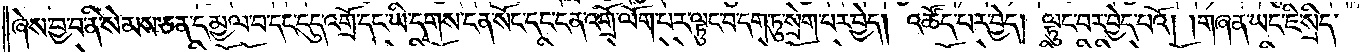ཞེས་བྱ་བ་ནི་སེམས་ཅན་དམྱལ་བ་དང་དུད་འགྲོ་དང་ཡི་དྭགས་ངན་སོང་དང་ངན་འགྲོ་ལོག་པར་ལྟུང་བ་དག་ཏུ་སྲེག་པར་བྱེད། འཚོད་པར་བྱེད། ལྟུང་བར་བྱེད་པའོ། །གཞན་ཡང་ཇི་སྲིད་
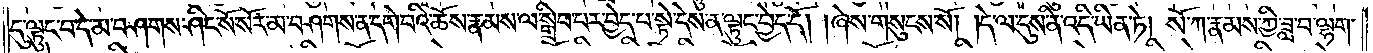དུ་ལྟུང་བ་དེ་མ་བཤགས་ཤིང་སོ་སོར་མ་བཤགས་ན་དགེ་བའི་ཆོས་རྣམས་ལ་སྒྲིབ་པར་བྱེད་པ་སྟེ་དེས་ན་ལྟུང་བྱེད་དོ། །ཞེས་གསུངས་སོ། །དེ་ལ་དུས་ནི་འདི་ཡིན་ཏེ། སོ་ཀ་རྣམས་ཀྱི་ཟླ་བ་ལྷག་
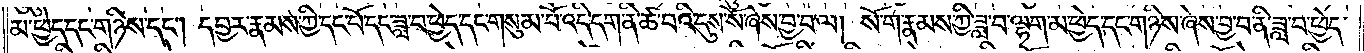མ་ཕྱེད་དང་གཉིས་དང༌། དབྱར་རྣམས་ཀྱི་དང་པོ་དང་ཟླ་བ་ཕྱེད་དང་གསུམ་པོ་འདི་དག་ནི་ཚ་བའི་དུས་སོ་ཞེས་བྱ་བ་ལ། སོ་ག་རྣམས་ཀྱི་ཟླ་བ་ལྷག་མ་ཕྱེད་དང་གཉིས་ཞེས་བྱ་བ་ནི་ཟླ་བ་ཕྱེད་
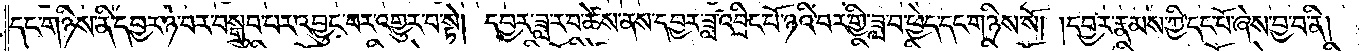དང་གཉིས་ནི་དབྱར་ཉེ་བར་བསྒྲུབ་པར་འབྱུང་བར་འགྱུར་བ་སྟེ། དབྱར་ཟླ་ར་བ་ཚེས་ནས་དབྱར་ཟླ་འབྲིང་པོ་ཉའི་བར་གྱི་ཟླ་བ་ཕྱེད་དང་གཉིས་སོ། །དབྱར་རྣམས་ཀྱི་དང་པོ་ཞེས་བྱ་བ་ནི།
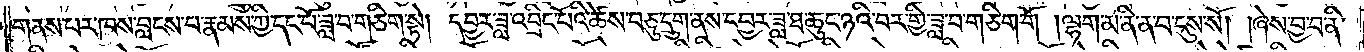གནས་པར་ཁས་བླངས་པ་རྣམས་ཀྱིས་དང་པོ་ཟླ་བ་གཅིག་སྟེ། དབྱར་ཟླ་འབྲིང་པོའི་ཚེས་བཅུ་དྲུག་ནས་དབྱར་ཟླ་ཐ་ཆུང་ཉའི་བར་གྱི་ཟླ་བ་གཅིག་གོ །ལྷག་མ་ནི་ན་བ་དུས་སོ། །ཞེས་བྱ་བ་ནི་
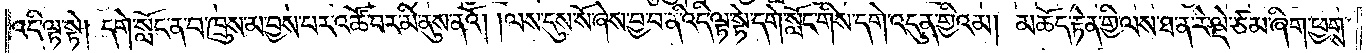འདི་ལྟ་སྟེ། དགེ་སློང་ན་བ་ཁྲུས་མ་བྱས་པར་འཚོ་བར་མི་ནུས་ནའོ། །ལས་དུས་སོ་ཞེས་བྱ་བ་ནི་འདི་ལྟ་སྟེ་དགེ་སློང་གིས་དགེ་འདུན་གྱིའམ། མཆོད་རྟེན་གྱི་ལས་ཐ་ན་རེ་ལྡེ་ཙམ་ཞིག་ཕྱགས་
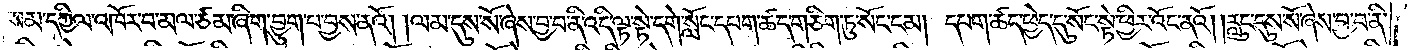སམ་དཀྱིལ་འཁོར་བ་མལ་ཙམ་ཞིག་བྱུག་པ་བྱས་ནའོ། །ལམ་དུས་སོ་ཞེས་བྱ་བ་ནི་འདི་ལྟ་སྟེ་དགེ་སློང་དཔག་ཚད་གཅིག་ཏུ་སོང་ངམ། དཔག་ཚད་ཕྱེད་དུ་སོང་སྟེ་ཕྱིར་འོང་ནའོ། །རླུང་དུས་སོ་ཞེས་བྱ་བ་ནི་
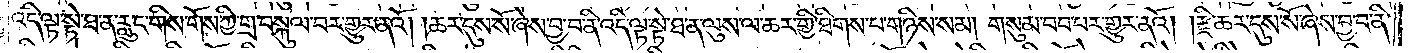འདི་ལྟ་སྟེ་ཐ་ན་རླུང་གིས་གོས་ཀྱི་གྲ་བསྐུལ་བར་གྱུར་ནའོ། །ཆར་དུས་སོ་ཞེས་བྱ་བ་ནི་འདི་ལྟ་སྟེ་ཐ་ན་ལུས་ལ་ཆར་གྱི་ཐིགས་པ་གཉིས་སམ། གསུམ་བབ་པར་གྱུར་ནའོ། །རྫེ་ཆར་དུས་སོ་ཞེས་བྱ་བ་ནི་
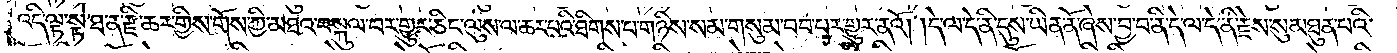འདི་ལྟ་སྟེ་ཐ་ན་རྫི་ཆར་གྱིས་གོས་ཀྱི་མཐའ་བསྐུལ་བར་གྱུར་ཅིང་ལུས་ལ་ཆར་པའི་ཐིགས་པ་གཉིས་སམ་གསུམ་བབ་པར་གྱུར་ནའོ། །དེ་ལ་དེ་ནི་དུས་ཡིན་ནོ་ཞེས་བྱ་བ་ནི་དེ་ལ་དེ་ནི་རྗེས་སུ་མཐུན་པའི་
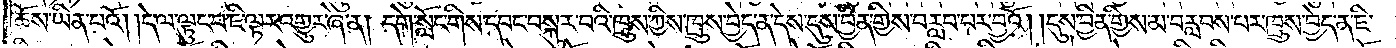ཆོས་ཡིན་པའོ། །དེ་ལ་ལྟུང་བ་ཇི་ལྟར་འགྱུར་ཞེ་ན། དགེ་སློང་གིས་དབང་བསྐུར་བའི་ཁྲུས་ཀྱིས་ཁྲུས་བྱེད་ན་དེས་དུས་བྱིན་གྱིས་བརླབ་པར་བྱའོ། །དུས་བྱིན་གྱིས་མ་བརླབས་པར་ཁྲུས་བྱེད་ན་ཇི་
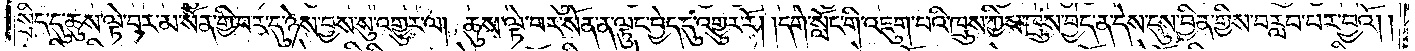སྲིད་དུ་ཆུས་ལྟེ་བར་མ་སོན་གྱི་བར་དུ་ཉེས་བྱས་སུ་འགྱུར་ལ། ཆུས་ལྟེ་བར་སོན་ན་ལྟུང་བྱེད་དུ་འགྱུར་རོ། །དགེ་སློང་གི་འཇུག་པའི་ཁྲུས་ཀྱིས་ཁྲུས་བྱེད་ན་དེས་དུས་བྱིན་གྱིས་བརླབ་པར་བྱའོ༎
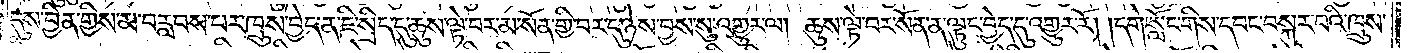དུས་བྱིན་གྱིས་མ་བརླབས་པར་ཁྲུས་བྱེད་ན་ཇི་སྲིད་དུ་ཆུས་ལྟེ་བར་མ་སོན་གྱི་བར་དུ་ཉེས་བྱས་སུ་འགྱུར་ལ། ཆུས་ལྟེ་བར་སོན་ན་ལྟུང་བྱེད་དུ་འགྱུར་རོ། །དགེ་སློང་གིས་དབང་བསྐུར་བའི་ཁྲུས་
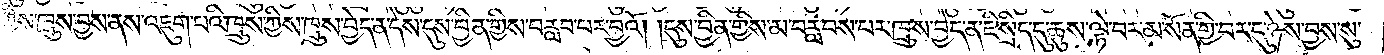ཀྱིས་ཁྲུས་བྱས་ནས་འཇུག་པའི་ཁྲུས་ཀྱིས་ཁྲུས་བྱེད་ན་དེས་དུས་བྱིན་གྱིས་བརླབ་པར་བྱའོ། །དུས་བྱིན་གྱིས་མ་བརླབ་པར་ཁྲུས་བྱེད་ན་ཇི་སྲིད་དུ་ཆུས་ལྟེ་བར་མ་སོན་གྱི་བར་དུ་ཉེས་བྱས་སུ་
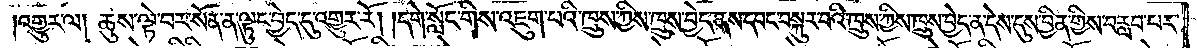འགྱུར་ལ། ཆུས་ལྟེ་བར་སོན་ན་ལྟུང་བྱེད་དུ་འགྱུར་རོ། །དགེ་སློང་གིས་འཇུག་པའི་ཁྲུས་ཀྱིས་ཁྲུས་བྱེད་ནས་དབང་བསྐུར་བའི་ཁྲུས་ཀྱིས་ཁྲུས་བྱེད་ན་དེས་དུས་བྱིན་གྱིས་བརླབ་པར་
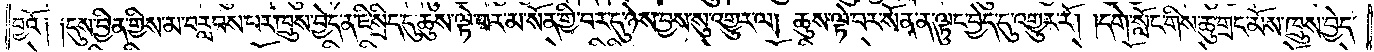བྱའོ༑ ༑དུས་བྱིན་གྱིས་མ་བརླབས་པར་ཁྲུས་བྱེད་ན་ཇི་སྲིད་དུ་ཆུས་ལྟེ་བར་མ་སོན་གྱི་བར་དུ་ཉེས་བྱས་སུ་འགྱུར་ལ། ཆུས་ལྟེ་བར་སོན་ན་ལྟུང་བྱེད་དུ་འགྱུར་རོ། །དགེ་སློང་གིས་ཆུ་གྲང་མོས་ཁྲུས་བྱེད་
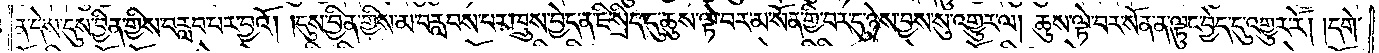ན་དེས་དུས་བྱིན་གྱིས་བརླབ་པར་བྱའོ། །དུས་བྱིན་གྱིས་མ་བརླབས་པར་ཁྲུས་བྱེད་ན་ཇི་སྲིད་དུ་ཆུས་ལྟེ་བར་མ་སོན་གྱི་བར་དུ་ཉེས་བྱས་སུ་འགྱུར་ལ། ཆུས་ལྟེ་བར་སོན་ན་ལྟུང་བྱེད་དུ་འགྱུར་རོ། །དགེ་
